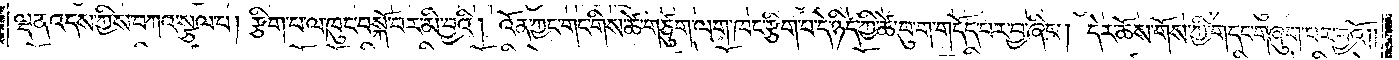ལྡན་འདས་ཀྱིས་བཀའ་སྩལ་པ། རྩིག་པ་ལ་ཁུང་བསྐོ་བར་མི་བྱའི། འོན་ཀྱང་གང་གིས་ཚེ་གཙུག་ལག་ཁང་རྩིག་པ་དེ་ཉིད་ཀྱི་ཚེ་བུ་ག་གདོད་པར་བྱ་ཞིང༌། དེར་ཆོས་གོས་ཀྱི་གདང་གཞུག་པར་བྱའོ། །
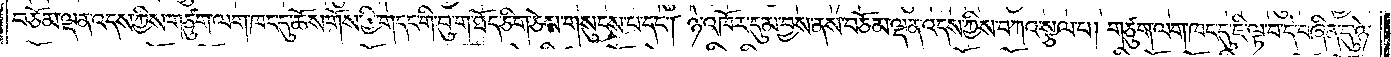བཅོམ་ལྡན་འདས་ཀྱིས་གཙུག་ལག་ཁང་དུ་ཆོས་གོས་ཀྱི་གདང་གི་བུ་ག་ཐོད་ཅིག་ཅེས་གསུངས་པ་དང༌། ཉེ་འཁོར་དུ་མ་བྱས་ནས་བཅོམ་ལྡན་འདས་ཀྱིས་བཀའ་སྩལ་པ། གཙུག་ལག་ཁང་དུ་ཇི་ལྟ་བ་དེ་བཞིན་དུ་ཉེ་
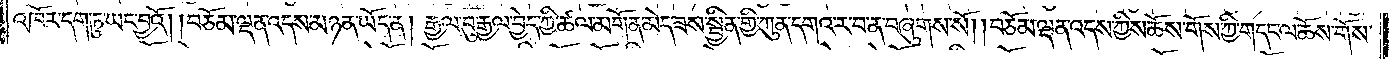འཁོར་དག་ཏུ་ཡང་བྱའོ། །བཅོམ་ལྡན་འདས་མཉན་ཡོད་ན། རྒྱལ་བུ་རྒྱལ་བྱེད་ཀྱི་ཚལ་མགོན་མེད་ཟས་སྦྱིན་གྱི་ཀུན་དགའ་ར་བ་ན་བཞུགས་སོ། །བཅོམ་ལྡན་འདས་ཀྱིས་ཆོས་གོས་ཀྱི་གདང་ལ་ཆོས་གོས་
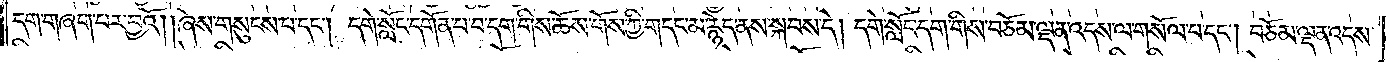དག་གཞག་པར་བྱའོ། །ཞེས་གསུངས་པ་དང༌། དགེ་སློང་དགོན་པ་བ་དག་གིས་ཆོས་གོས་ཀྱི་གདང་མ་རྙེད་ནས་སྐབས་དེ། དགེ་སློང་དག་གིས་བཅོམ་ལྡན་འདས་ལ་གསོལ་པ་དང༌། བཅོམ་ལྡན་འདས་
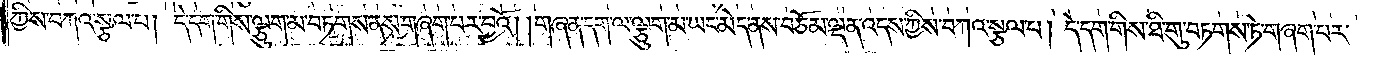ཀྱིས་བཀའ་སྩལ་པ། དེ་དག་གིས་ལྕུག་མ་བཏགས་ནས་གཞག་པར་བྱའོ། །གཞན་དག་ལ་ལྕུག་མ་ཡང་མེད་ནས་བཅོམ་ལྡན་འདས་ཀྱིས་བཀའ་སྩལ་པ། དེ་དག་གིས་ཐི་གུ་བཏགས་ཏེ་གཞག་པར་
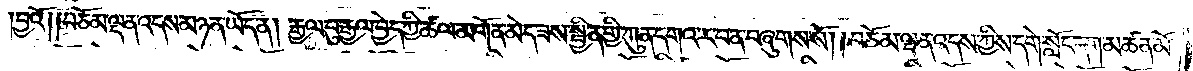བྱའོ༑ ༑བཅོམ་ལྡན་འདས་མཉན་ཡོད་ན། རྒྱལ་བུ་རྒྱལ་བྱེད་ཀྱི་ཚལ་མགོན་མེད་ཟས་སྦྱིན་གྱི་ཀུན་དགའ་ར་བ་ན་བཞུགས་སོ། །བཅོམ་ལྡན་འདས་ཀྱིས་དགེ་སློང་དག་མཚན་མོ་
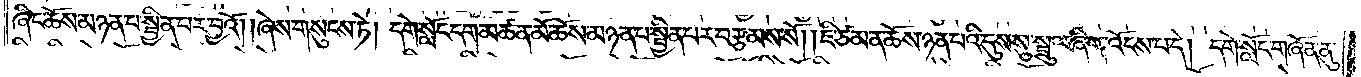ཞིང་ཆོས་མཉན་པ་སྦྱིན་པར་བྱའོ། །ཞེས་གསུངས་ཏེ། དགེ་སློང་དག་མཚན་མོ་ཆོས་མཉན་པ་སྦྱིན་པར་བརྩམས་སོ། །ཇི་ཙམ་ན་ཆོས་ཉན་པའི་དུས་སུ་སྦྲུལ་ཞིག་འོངས་པ་དེ། དགེ་སློང་གཞོན་ནུ་
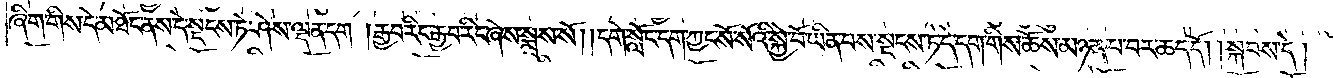ཞིག་གིས་དེ་མཐོང་ནས་དེ་སྡངས་ཏེ་ཤེས་ལྡན་དག །རྒྱབ་རིང་རྒྱབ་རིང་ཞེས་སྨྲས་སོ། །དགེ་སློང་དག་ཀྱང་སོ་སོའི་སྐྱེ་བོ་ཡིན་པས་སྡངས་ཏེ་དེ་དག་གིས་ཆོས་མཉན་པ་བར་ཆད་དོ། །སྐབས་དེ།
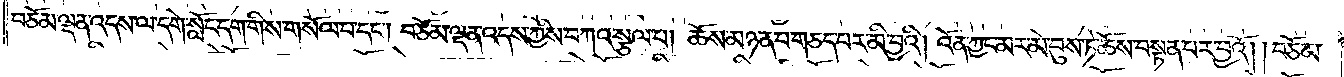བཅོམ་ལྡན་འདས་ལ་དགེ་སློང་དག་གིས་གསོལ་པ་དང༌། བཅོམ་ལྡན་འདས་ཀྱིས་བཀའ་སྩལ་པ། ཆོས་མཉན་པ་གཅད་པར་མི་བྱའི། །འོན་ཀྱང་མར་མེ་བུས་ཏེ་ཆོས་བསྟན་པར་བྱའོ། །བཅོམ་
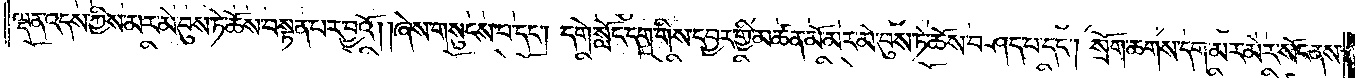ལྡན་འདས་ཀྱིས་མར་མེ་བུས་ཏེ་ཆོས་བསྟན་པར་བྱའོ། །ཞེས་གསུངས་པ་དང༌། དགེ་སློང་དག་གིས་དབྱར་གྱི་མཚན་མོ་མར་མེ་བུས་ཏེ་ཆོས་བཤད་པ་དང༌། སྲོག་ཆགས་དག་མར་མེར་སོང་ནས་
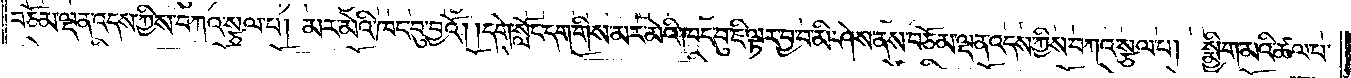བཅོམ་ལྡན་འདས་ཀྱིས་བཀའ་སྩལ་པ། མར་མེའི་ཁང་བུ་བྱའོ། །དགེ་སློང་དག་གིས་མར་མེའི་ཁང་བུ་ཇི་ལྟར་བྱ་བ་མི་ཤེས་ནས་བཅོམ་ལྡན་འདས་ཀྱིས་བཀའ་སྩལ་པ། སྨྱིག་མའི་ཚལ་པ་
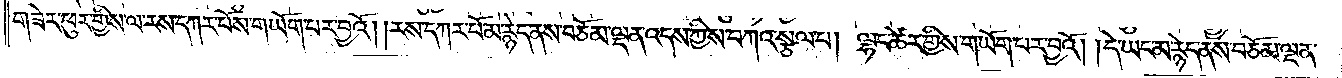གཟེར་ཕུར་གྱིས་ལ་རས་དཀར་པོས་གཡོག་པར་བྱའོ། །རས་དཀར་པོ་མ་རྙེད་ནས་བཅོམ་ལྡན་འདས་ཀྱིས་བཀའ་སྩལ་པ། ལྷང་ཚེར་གྱིས་གཡོག་པར་བྱའོ། །དེ་ཡང་མ་རྙེད་ནས་བཅོམ་ལྡན་
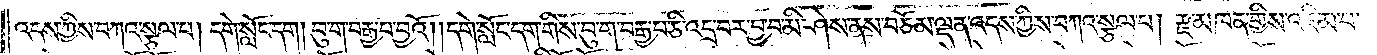འདས་ཀྱིས་བཀའ་སྩལ་པ། དགེ་སློང་དག །བུ་ག་བརྒྱ་པ་བྱའོ། །དགེ་སློང་དག་གིས་བུ་ག་བརྒྱ་པ་ཅི་འདྲ་བར་བྱ་བ་མི་ཤེས་ནས་བཅོམ་ལྡན་འདས་ཀྱིས་བཀའ་སྩལ་པ། རྫ་མཁན་གྱིས་འཇིམ་པ་
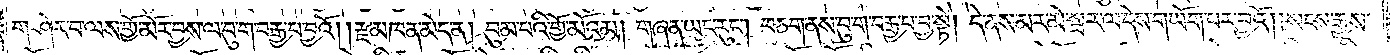གཤེར་བ་ལས་གྱོ་མོར་བྱས་ལ་བུ་ག་བརྒྱ་པ་བྱའོ། །རྫ་མཁན་མེད་ན། བུམ་པའི་གྱོ་མོའམ། གཞན་ཡང་རུང༌། བཅག་ནས་བུ་ག་བརྒྱ་པ་བྱ་སྟེ། དེ་ནས་མར་མེ་སྦར་ལ་དེས་གཡོག་པར་བྱའོ། །སངས་རྒྱས་
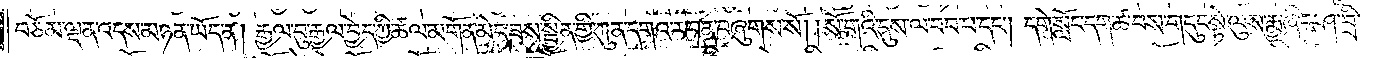བཅོམ་ལྡན་འདས་མཉན་ཡོད་ན། རྒྱལ་བུ་རྒྱལ་བྱེད་ཀྱི་ཚལ་མགོན་མེད་ཟས་སྦྱིན་གྱི་ཀུན་དགའ་ར་བ་ན་བཞུགས་སོ། །སོ་གའི་དུས་ལ་བབ་པ་དང༌། དགེ་སློང་དག་ཚ་བས་གདུང་སྟེ་ལུས་རྨྱ་ཞིང་ཤ་བྲི་
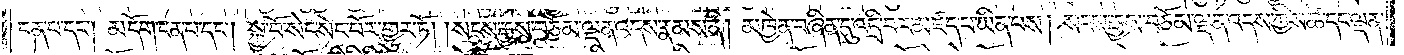ངན་པ་དང༌། མདོག་ངན་པ་དང༌། སྐྱ་བོ་སེང་སེང་པོར་གྱུར་ཏོ། །སངས་རྒྱས་བཅོམ་ལྡན་འདས་རྣམས་ནི། མཁྱེན་བཞིན་དུ་འདྲི་བར་མཛད་པ་ཡིན་པས། སངས་རྒྱས་བཅོམ་ལྡན་འདས་ཀྱིས་ཚེ་དང་ལྡན་
